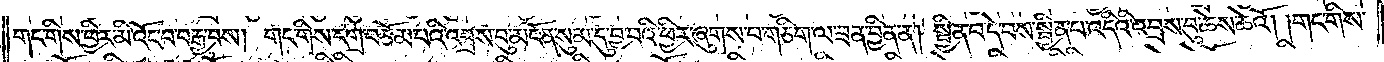གང་གིས་ཕྱིར་མི་འོང་བ་བརྒྱ་བས། གང་གིས་དགྲ་བཅོམ་པའི་འབྲས་བུ་མངོན་སུམ་དུ་བྱ་བའི་ཕྱིར་ཞུགས་པ་གཅིག་ལ་ཟན་བྱིན་ན། སྦྱིན་པ་དེ་བས་སྦྱིན་པ་འདིའི་འབྲས་བུ་ཆེས་ཆེའོ། །གང་གིས་
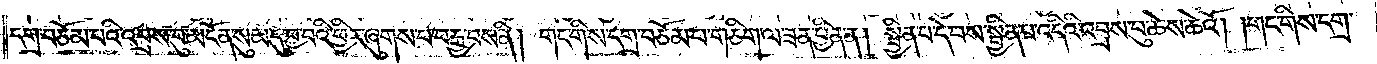དགྲ་བཅོམ་པའི་འབྲས་བུ་མངོན་སུམ་དུ་བྱ་བའི་ཕྱིར་ཞུགས་པ་བརྒྱ་བས་ནི། གང་གིས་དགྲ་བཅོམ་པ་གཅིག་ལ་ཟན་བྱིན་ན། སྦྱིན་པ་དེ་བས་སྦྱིན་པ་འདིའི་འབྲས་བུ་ཆེས་ཆེའོ། །གང་གིས་དགྲ་
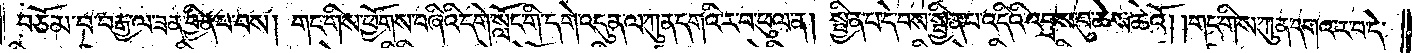བཅོམ་པ་བརྒྱ་ལ་ཟན་བྱིན་པ་བས། གང་གིས་ཕྱོགས་བཞིའི་དགེ་སློང་གི་དགེ་འདུན་ལ་ཀུན་དགའི་ར་བ་ཕུལ་ན། སྦྱིན་པ་དེ་བས་སྦྱིན་པ་འདིའི་འབྲས་བུ་ཆེས་ཆེའོ། །གང་གིས་ཀུན་དགའ་ར་བ་དེ་
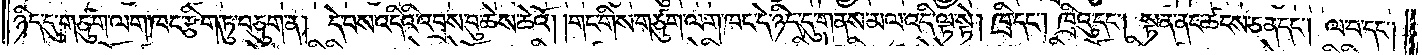ཉིད་དུ་གཙུག་ལག་ཁང་རྩིག་ཏུ་བཅུག་ན། དེ་བས་འདིའི་འབྲས་བུ་ཆེས་ཆེའོ། །གང་གིས་གཙུག་ལག་ཁང་དེ་ཉིད་དུ་གནས་མལ་འདི་ལྟ་སྟེ། ཁྲི་དང༌། ཁྲིའུ་དང༌། སྟན་ནང་ཚངས་ཅན་དང༌། ལ་བ་དང༌།
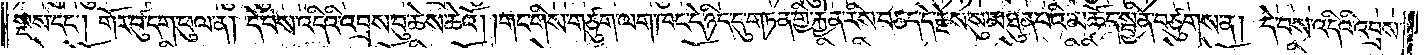སྔས་དང༌། གོར་བུ་དག་ཕུལ་ན། དེ་བས་འདིའི་འབྲས་བུ་ཆེས་ཆེའོ། །གང་གིས་གཙུག་ལག་ཁང་དེ་ཉིད་དུ་གཏན་གྱི་རྐྱེན་རིས་བཅད་དེ་རྗེས་སུ་མཐུན་པའི་མཆོད་སྦྱིན་བཙུགས་ན། དེ་བས་འདིའི་འབྲས་
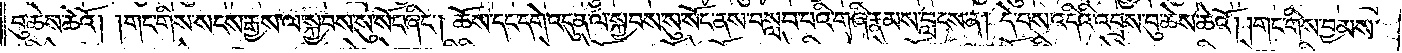བུ་ཆེས་ཆེའོ། །གང་གིས་སངས་རྒྱས་ལ་སྐྱབས་སུ་སོང་ཞིང༌། ཆོས་དང་དགེ་འདུན་ལ་སྐྱབས་སུ་སོང་ནས་བསླབ་པའི་གཞི་རྣམས་བླངས་ན། དེ་བས་འདིའི་འབྲས་བུ་ཆེས་ཆེའོ། །གང་གིས་བྱམས་
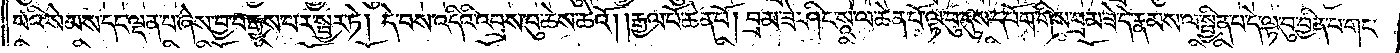པའི་སེམས་དང་ལྡན་པ་ཞེས་བྱ་བ་རྒྱས་པར་སྦྱར་ཏེ། དེ་བས་འདིའི་འབྲས་བུ་ཆེས་ཆེའོ། །རྒྱལ་པོ་ཆེན་པོ། བྲམ་ཟེ་ཤིང་སཱ་ལ་ཆེན་པོ་ལྟ་བུ་དུས་དཔོག་གིས་བྲམ་ཟེ་དེ་རྣམས་ལ་སྦྱིན་པ་དེ་ལྟ་བུ་བྱིན་པ་གང་
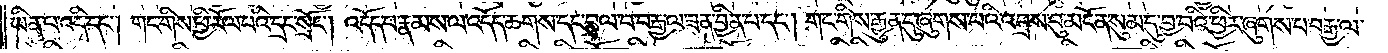ཡིན་པ་འདི་དང༌། གང་གིས་ཕྱི་རོལ་པའི་དྲང་སྲོང༌། འདོད་པ་རྣམས་ལ་འདོད་ཆགས་དང་བྲལ་བ་བརྒྱ་ལ་ཟན་བྱིན་པ་དང༌། གང་གིས་རྒྱུན་དུ་ཞུགས་པའི་འབྲས་བུ་མངོན་སུམ་དུ་བྱ་བའི་ཕྱིར་ཞུགས་པ་བརྒྱ་ལ་
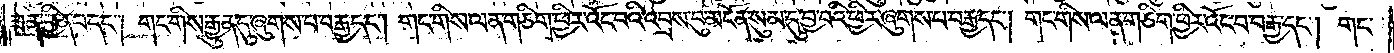ཟན་བྱིན་པ་དང༌། གང་གིས་རྒྱུན་དུ་ཞུགས་པ་བརྒྱ་དང༌། གང་གིས་ལན་གཅིག་ཕྱིར་འོང་བའི་འབྲས་བུ་མངོན་སུམ་དུ་བྱ་བའི་འཕྱིར་ཞུགས་པ་བརྒྱ་དང༌། གང་གིས་ལན་གཅིག་ཕྱིར་འོང་བ་བརྒྱ་དང༌། གང་
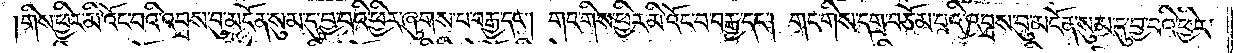།གིས་ཕྱིར་མི་འོང་བའི་འབྲས་བུ་མངོན་སུམ་དུ་བྱ་བའི་ཕྱིར་ཞུགས་པ་བརྒྱ་དང༌། གང་གིས་ཕྱིར་མི་འོང་བ་བརྒྱ་དང༌། གང་གིས་དགྲ་བཅོམ་པའི་འབྲས་བུ་མངོན་སུམ་དུ་བྱ་བའི་ཕྱིར་
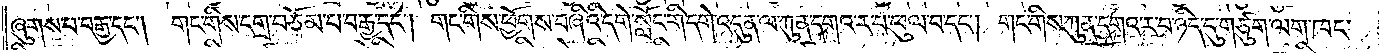ཞུགས་པ་བརྒྱ་དང༌། གང་གིས་དགྲ་བཅོམ་པ་བརྒྱ་དང༌། གང་གིས་ཕྱོགས་བཞིའི་དགེ་སློང་གི་དགེ་འདུན་ལ་ཀུན་དགའ་ར་བ་ཕུལ་བ་དང༌། གང་གིས་ཀུན་དགའ་ར་བ་ཉིད་དུ་གཙུག་ལག་ཁང་
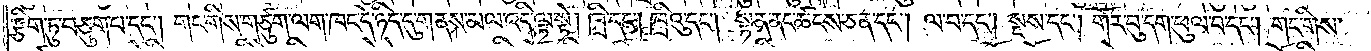རྩིག་ཏུ་བཅུག་པ་དང༌། གང་གིས་གཙུག་ལག་ཁང་དེ་ཉིད་དུ་གནས་མལ་འདི་ལྟ་སྟེ། ཁྲི་དང༌། ཁྲིའུ་དང༌། སྟན་ནང་ཚངས་ཅན་དང༌། ལ་བ་དང༌། སྔས་དང༌། གོར་བུ་དག་ཕུལ་བ་དང༌། གང་གིས་
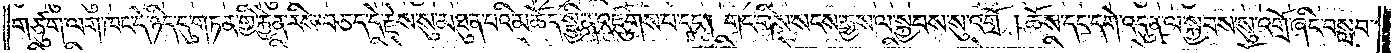གཙུག་ལག་ཁང་དེ་ཉིད་དུ་གཏན་གྱི་རྐྱེན་རིས་བཅད་དེ་རྗེས་སུ་མཐུན་པའི་མཆོད་སྦྱིན་འཛུགས་པ་དང༌། གང་གིས་སངས་རྒྱས་ལ་སྐྱབས་སུ་འགྲོ་།ཆོས་དང་དགེ་འདུན་ལ་སྐྱབས་སུ་འགྲོ་ཞིང་བསླབ་
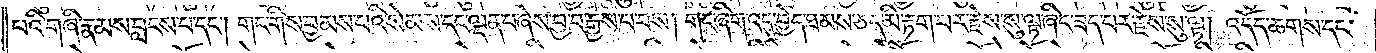པའི་གཞི་རྣམས་བླངས་པ་དང༌། གང་གིས་བྱམས་པའི་སེམས་དང་ལྡན་པ་ཞེས་བྱ་བ་རྒྱས་པ་བས། གང་ཞིག་འདུ་བྱེད་ཐམས་ཅད་མི་རྟག་པར་རྗེས་སུ་ལྟ་ཞིང་ཟད་པར་རྗེས་སུ་ལྟ། འདོད་ཆགས་དང་
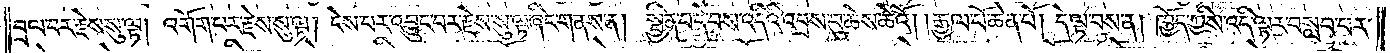བྲལ་བར་རྗེས་སུ་ལྟ། འགོག་པར་རྗེས་སུ་ལྟ། ངེས་པར་འབྱུང་བར་རྗེས་སུ་ལྟ་ཞིང་གནས་ན། སྦྱིན་བདེ་བས་འདིའི་འབྲས་བུ་ཆེས་ཆེའོ། །རྒྱལ་པོ་ཆེན་པོ། དེ་ལྟ་བས་ན། ཁྱོད་ཀྱིས་འདི་ལྟར་བསླབ་པར་
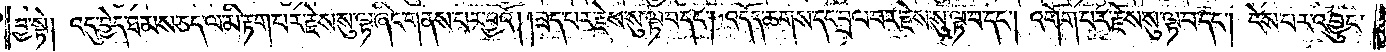བྱ་སྟེ། འདུ་བྱེད་ཐམས་ཅད་ལ་མི་རྟག་པར་རྗེས་སུ་ལྟ་ཞིང་གནས་པར་བྱའོ། །ཟད་པར་རྗེས་སུ་ལྟ་བ་དང༌། འདོད་ཆགས་དང་བྲལ་བར་རྗེས་སུ་ལྟ་བ་དང༌། འགོག་པར་རྗེས་སུ་ལྟ་བ་དང༌། ངེས་པར་འབྱུང་
